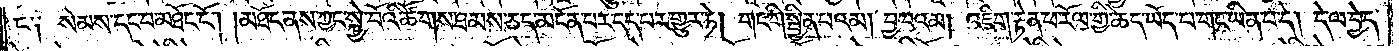ང་༑ སེམས་དང་བ་མཐོང་ངོ༌། །མཐོང་ནས་ཀྱང་སྐྱེ་བོའི་ཚོགས་ཐམས་ཅད་མངོན་པར་དད་པར་གྱུར་ཏེ། གང་གི་སྦྱིན་པའམ། བྱ་བའམ། འཇིག་རྟེན་ཕ་རོལ་གྱི་ཆེད་ཡོད་པ་གང་ཡིན་པ་དེ། དེ་ལ་བྱེད་
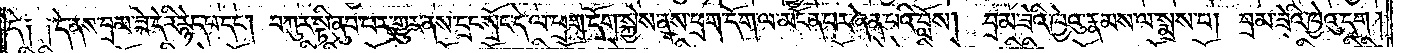དེ༑ ༑དེ་ནས་བྲམ་ཟེ་དེའི་རྙེད་པ་དང༌། བཀུར་སྟི་ནུབ་པར་གྱུར་ནས་དྲང་སྲོང་དེ་ལ་ཕྲག་དོག་སྐྱེས་ནས་ཕྲག་དོག་ལ་མངོན་པར་ཞེན་པའི་བློས། བྲམ་ཟེའི་ཁྱེའུ་རྣམས་ལ་སྨྲས་པ། བྲམ་ཟེའི་ཁྱེའུ་དག་
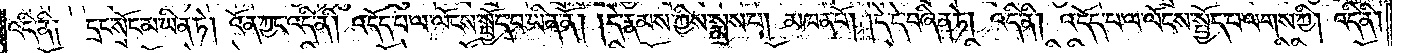འདི་ནི༑ དྲང་སྲོང་མ་ཡིན་ཏེ། འོན་ཀྱང་འདི་ནི། འདོད་པ་ལ་ལོངས་སྤྱོད་པ་ཡིན་ནོ། །དེ་རྣམས་ཀྱིས་སྨྲས་པ། མཁན་པོ། །དེ་དེ་བཞིན་ཏེ། འདི་ནི། འདོད་པ་ལ་ལོངས་སྤྱོད་པ་ལགས་ཀྱི། འདི་ནི།
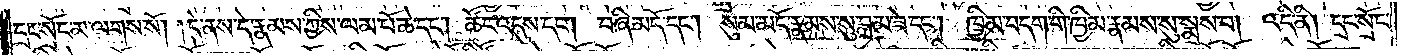དྲང་སྲོང་མ་ལགས་སོ། །དེ་ནས་དེ་རྣམས་ཀྱིས་ལམ་པོ་ཆེ་དང༌། ཚོང་འདུས་དང༌། བཞི་མདོ་དང༌། སུམ་མདོ་རྣམས་སུ་བྲམ་ཟེ་དང༌། ཁྱིམ་བདག་གི་ཁྱིམ་རྣམས་སུ་སྨྲས་པ། འདི་ནི། དྲང་སྲོང་
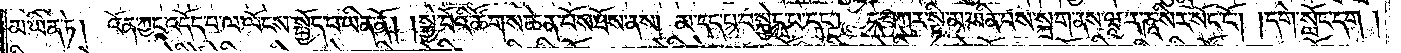མ་ཡིན་ཏེ། འོན་ཀྱང་འདོད་པ་ལ་ལོངས་སྤྱོད་པ་ཡིན་ནོ། །སྐྱེ་བོའི་ཚོགས་ཆེན་པོས་ཐོས་ནས། མ་དད་པ་བསྐྱེད་པ་དང༌། དེ་བཀུར་སྟི་མ་ཡིན་པས་སྐྲག་ནས་ཝཱ་ར་ཎཱ་སིར་སོང་ངོ༌། །དགེ་སློང་དག།
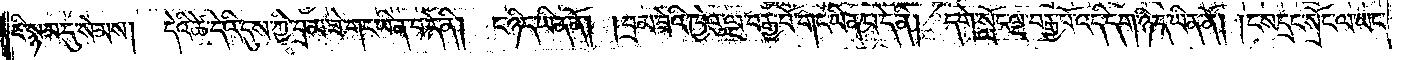ཇི་སྙམ་དུ་སེམས། དེའི་ཚེ་དེའི་དུས་ཀྱི་བྲམ་ཟེ་གང་ཡིན་པ་དེ་ནི། ང་ཉིད་ཡིན་ནོ། །བྲམ་ཟེའི་ཁྱེའུ་ལྔ་བརྒྱ་པོ་གང་ཡིན་པ་དེ་ནི། དགེ་སློང་ལྔ་བརྒྱ་པོ་འདི་དག་ཉིད་ཡིན་ནོ། །ངས་དྲང་སྲོང་ལ་ཡང་
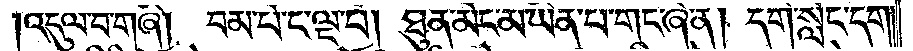འདུལ་བ་གཞི། བམ་པོ་ང་ལྔ་པ། ཐུན་མོང་མ་ཡིན་པ་གང་ཞེ་ན། དགེ་སློང་དག།
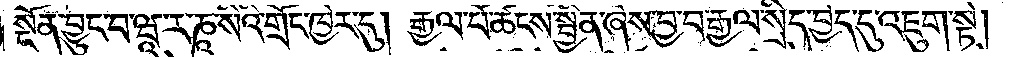སྔོན་བྱུང་བ་ཝཱ་ར་ཎཱ་སིའི་གྲོང་ཁྱེར་དུ། རྒྱལ་པོ་ཚངས་སྦྱིན་ཞེས་བྱ་བ་རྒྱལ་སྲིད་བྱེད་དུ་འཇུག་སྟེ།
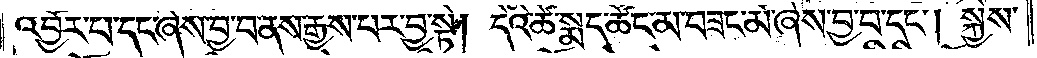འབྱོར་པ་དང་ཞེས་བྱ་བ་ནས་རྒྱས་པར་བྱ་སྟེ། དེའི་ཚེ་སྨད་ཚོང་མ་བཟང་མོ་ཞེས་བྱ་བ་དང༌། སྐྱེས་
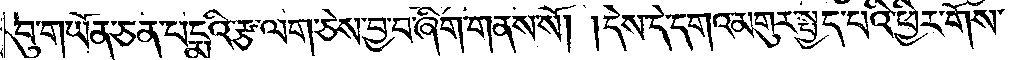བུ་གཡོན་ཅན་པདྨའི་རྩ་ལག་ཅེས་བྱ་བ་ཞིག་གནས་སོ། །དེས་དེ་དགའ་མགུར་སྤྱད་པའི་ཕྱིར་གོས་
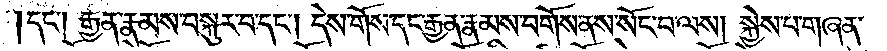དང༌། རྒྱན་རྣམས་བསྐུར་བ་དང༌། དེས་གོས་དང་རྒྱན་རྣམས་བགོས་ནས་སོང་བ་ལས། སྐྱེས་པ་གཞན་
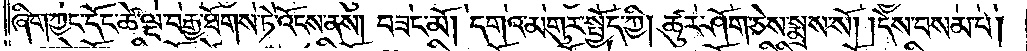ཞིག་ཀྱང་དོང་ཚེ་ལྔ་བརྒྱ་ཐོགས་ཏེ་འོངས་ནས། བཟང་མོ། དགའ་མགུར་སྤྱོད་ཀྱི། ཚུར་ཤོག་ཅེས་སྨྲས་སོ། །དེས་བསམས་པ།
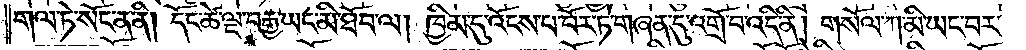གལ་ཏེ་སོང་ན་ནི། དོང་ཚེ་ལྔ་བརྒྱ་ཡང་མི་ཐོབ་ལ། ཁྱིམ་དུ་འོངས་པ་བོར་ཏེ་གཞན་དུ་འགྲོ་བ་འདི་ནི། གསོལ་ཀ་མི་ཡང་བར་
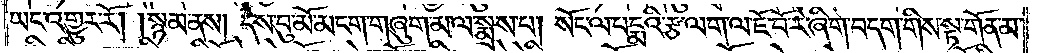ཡང་འགྱུར་རོ། །སྙམ་ནས། དེས་བུ་མོ་མངག་གཞུག་མ་ལ་སྨྲས་པ། སོང་ལ་པདྨའི་རྩ་ལག་ལ་ཇོ་བོ་རེ་ཞིག་བདག་གིས་སྟ་གོན་མ་
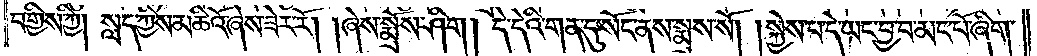བགྱིས་ཀྱི། སླད་ཀྱིས་མཆིའོ་ཞེས་ཟེར་རོ། །ཞེས་སྨྲོས་ཤིག། དེ་དེའི་གན་དུ་སོང་ནས་སྨྲས་སོ། །སྐྱེས་པ་དེ་ཡང་བྱ་བ་མང་པོ་ཞིག་
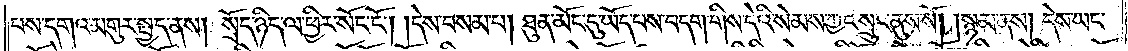པས་དགའ་མགུར་སྤྱད་ནས། སྲོད་ཉིད་ལ་ཕྱིར་སོང་ངོ༌། །དེས་བསམ་པ། ཐུན་མོང་དུ་ཡོད་པས་བདག་གིས་དེའི་སེམས་ཀྱང་སྲུང་ནུས་སོ། །སྙམ་ནས། དེས་ཡང་
